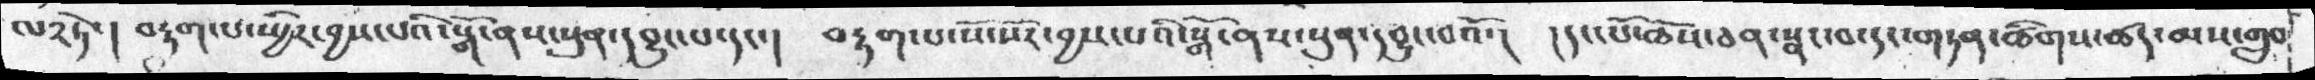ལ༢ཏེ་། བརྟག་པ་སྤྱིར་བྱས་པའི་སྒོ་ནས་སུན་དབྱུང་པ་དང་།  བརྟག་པ་སོ་སོར་བྱས་པའི་སྒོ་ནས་སུན་དབྱུང་བའོ་།  །དང་པོ་ཆོས་ཅན་སྣང་བ་དང་གཏན་ཚིགས་ཚད་མས་གྲུབ
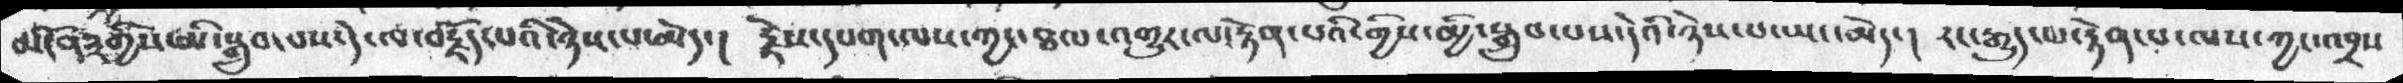མངོན༣གྱིས་མི་སྒྲུན་པས་དེ་ལ་བརྗོད་པའི་ཉེས་པ་མེད་།  རྗེས་དཔག་ལས་ཀྱང་ཐལ་འགྱུར་ལ་རྟོན་པའི་གྱིས་མྱི་སྒྲུབ་པས་དེའི་ཉེས་པ་ཡང་མེད་།  རང་རྒྱུད་མ་རྟེན་པ་ལས་ཀྱང་འབྲས
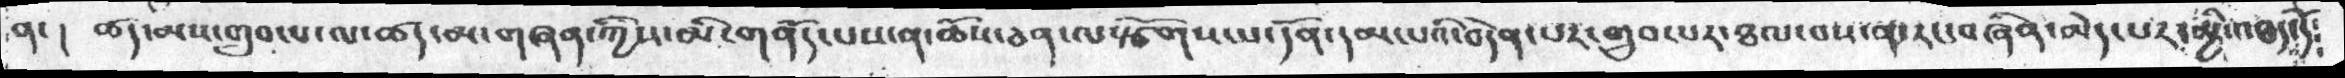ན་ ། ཚད་མས་གྲུབ་པ་ལ་ཚད་མ་གཞན་ཀྱིས་མི་གནོད་པས་ན་ཆོས་ཅན་ལསྩོགསཔ་དོན་དམ་པའི་བདེན་པར་གྲུབ་པར་ཐལ་བས་ན་རང་བཞིན་མེད་པར་མྱི་འཐད་དོ༴
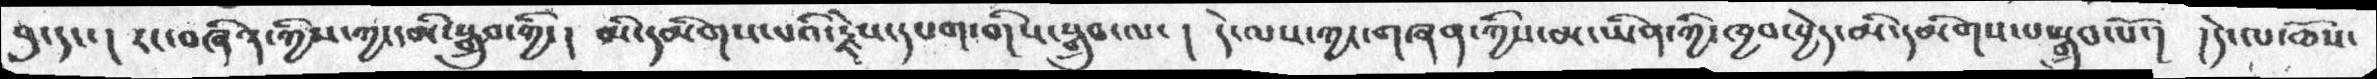བུ་དང་། རང་བཞིན་གྱིས་ཀྱང་མི་སྒྲུབ་ཀྱི་།  མི་དམིགས་པའི་རྗེས་དཔག་གིས་སྒྲུབ་ལ་།  དེས་ལས་ཀྱང་གཞན་གྱིས་མ་ཡིན་གྱི་ཁྱབ་བྱེད་མི་དམིགས་ས་སྒྲུབ་པོ་།  །དེ་ལ་ཆོས་
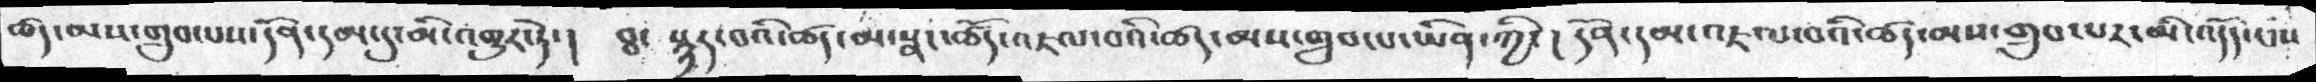ཚད་མས་གྲུབ་པས་དོན་དམ་དུ་མི་འགྱུར་ཏེ་། ཐ་ སྙད་པའི་ཚད་མ་སྣང་ཚོད་འཇལ་བའི་ཚད་མས་གྲུབ་པ་ཡིན་ཀྱི་།  དོན་དམ་འཇལ་བའི་ཚད་མས་གྲུབ་པར་མི་འདོད་པས
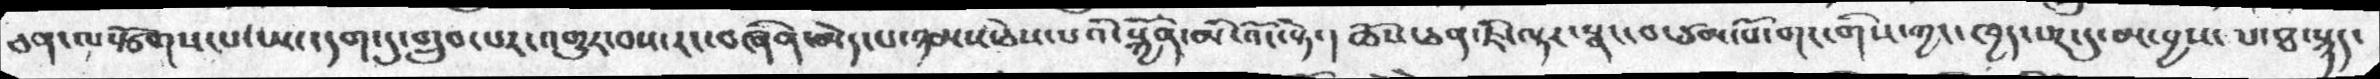ཅན་ལསྩོགས་པ་ཡང་དག་དུ་གྲུབ་པར་འགྱུར་བས་རང་བཞིན་མེད་པ་ཉམས་ཅེས་པའི་སྐྱོན་མི་འོང་སྟེ་། ཆོས་ཅན་ཇི་ལྟར་སྣང་ཙམ་པོ་གང་གིས་ཀྱང་ཁྱད་པར་དུ་མ་བྱས་པ་ཐ་སྙད་
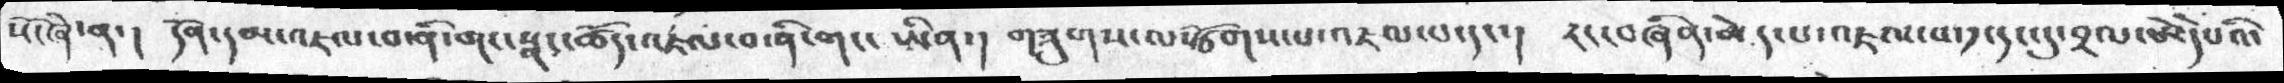སོ་ཞེ་ན་།  དོན་དམ་འཇལ་བ་གང་སྣང་ཚོད་འཇལ་བ་ནི་གང་ཡིན་། གཟུགས་ལསོགས་པ་འཇལ་པ་དང་།  རང་བཞིན་མེད་པ་འཇལ་བ་དུ་དང་དུ་བྲལ་བར་དེཔའི་
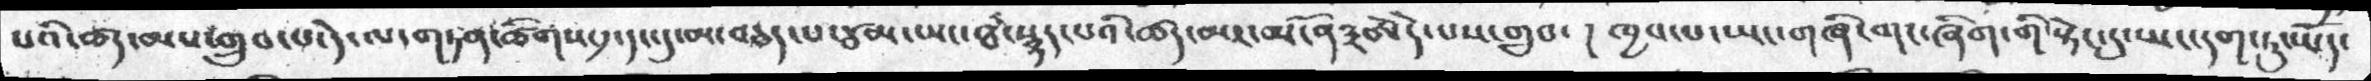པའི་ཚད་མས་གྲུབ་པ་དེ་ལ་གཏན་ཚིགས་དུ་དང་དུ་མ་བཅད་པ་ཙམ་ཡང་ཐ་སྙད་པའི་ཚད་མར་མངོན༣བོར་དེ་པས་གྲུབ་།  ཁྱབ་པ་ཡང་གཞི་གང་ཞིག་གི་སྟེང་དུ་ཡང་དག་ཏུ་ཡོད་
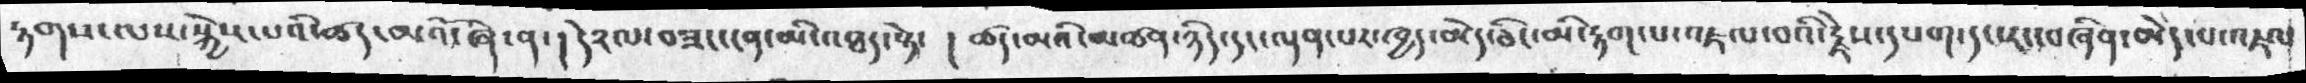རྟགས་ལས་སྐྱེས་པའི་ཚད་མའོ་ཞེ་ན་།  དེ༢ལ་བཟང་ངན་མི་འཐད་སྟེ་  ། ཚད་མའི་མཚན་ཉིད་དང་ལྡན་པར་ཁྱད་མེད་ཅིང་མི་རྟག་པ་འཇལ་བའི་རྗེས་དཔག་དང་རང་བཞིན་མེད་འཇལ
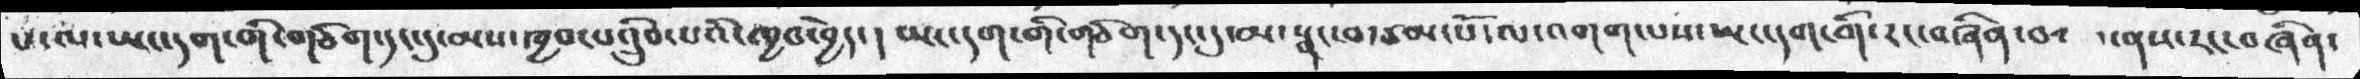པ་ལ་ཡང་དག་གི་གཅིག་དང་དུ་མས་ཁྱབ་པ་དྲིུབ་པའི་ཁྱབ་བྱེད་།  ཡང་དག་གི་གཅིག་དང་དུ་མ་སྣང་བ་ཙམ་པོ་ལ་འགག་པས་ཡང་དག་གི་རང་བཞིན་བསམ་ནས་རང་བཞིན་
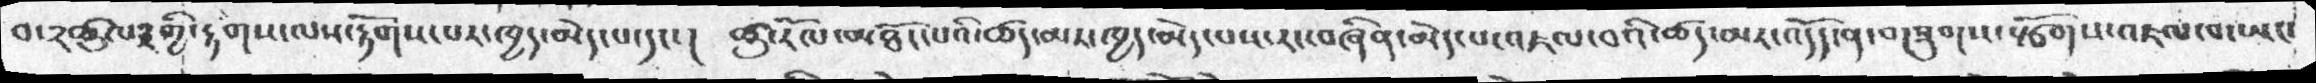བ་༢ཚུལ༣གྱི་རྟགས་ལས་རྟོགས་པར་ཁྱད་མེད་པ་དང་། ཚུ་རོལ་མཐོང་པའི་ཚད་མས་ཁྱད་མེད་པས་རང་བཞིན་མེད་པ་འཇལ་བའི་ཚད་མར་འདོད་ན་གཟུགས་སྩོགས་འཇལ་བ་ཡང་
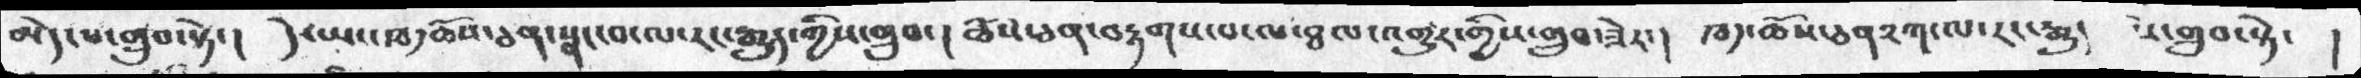མེད་པ་གྲུབ་སྟེ་།  དེ་ཡང་ཁ༡ཆོས་ཅན་སྣང་བ་ལ་རང་རྒྱུད་གྱིས་གྲུབ་།  ཆོས་ཕན་བརྟགས་པ་ལ་ཐལ་འགྱུར་གྱིས་གྲུབ་ཟེར་།  ཁ༡་ཆོས་ཅན༢ཀ་ལ་རང་རྒྱུད  སྟེ་གྲུབ་སྟེ་   །
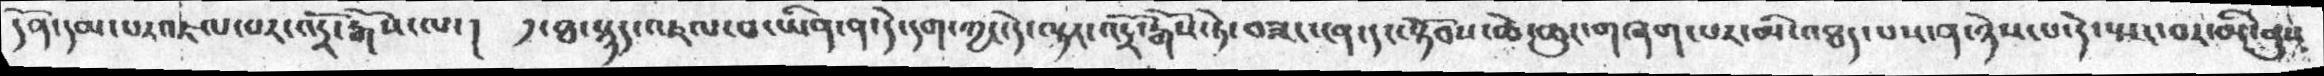དོན་དམ་པར་འཇལ་བར་འདྲོ་རྒོས་ལ་།  ༡་ཐ་སྙད་འཇལ་བ་ཡིན་ན་དེ་དག་ཀྱང་དེ་ལྟར་འདྲོ་རྒོས་ཏེ་བཟང་ངན་དང་སྟོབས་ཆེ་ཆུང་གཞག་པར་མི་འཐད་པས་ན་ཉེས་པ་ད་ེསྤང་བར་མི་ནུས་
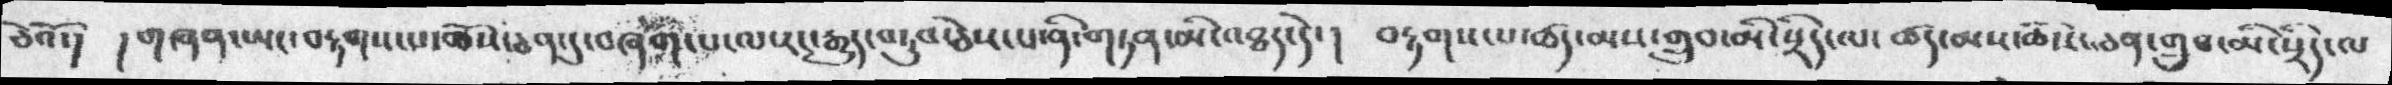ཅེའོ་།  །གཞན་ཡང་བརྟགས་པ་ཆོས་ཅན་དུ་བཞག་པ་ལ་རང་རྒྱུད་བཏུབ་ཅེས་པ་ནི་གཏན་མི་འཐད་དེ་།  བརྟགས་པ་ཚད་མས་གྲུབ་མི་སྲིད་ལ་ཚད་མས་ཆོས་ཅན་གྲུབ་མི་སྲིད་ལ་
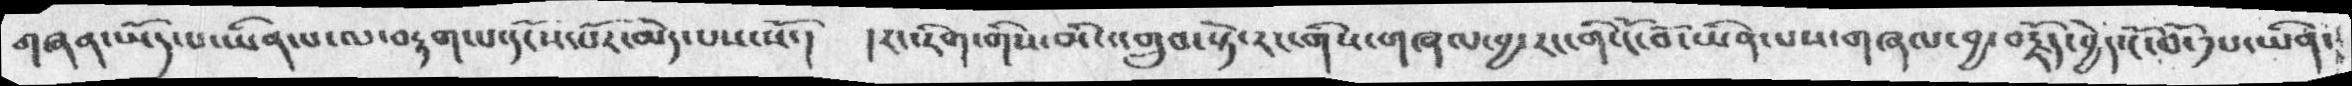གཞན་ཡོད་པ་ཡིན་པ་ལ་བརྟག་པ་དངོས་པོར་མེད་པས་སོ་།  །རང་རིག་གིས་མི་འགྲུབ་སྟེ་རང་གིས་གཞལ་བྱ་རང་གི་ངོ་བོ་ཡིན་པས་གཞལ་བྱ་བརྗོད་བྱེད་ངོ་བོ་༡པ་ཡིན་
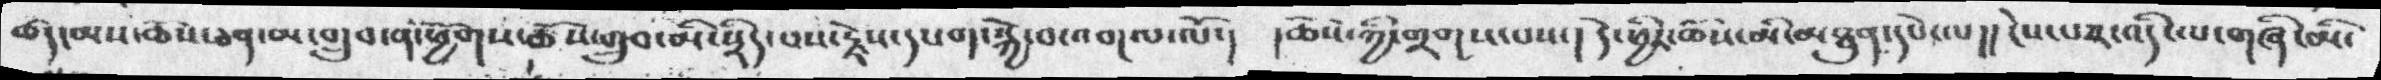ཚད་མས་ཆོས་ཅན་མ་གྲུབ་ན་ཕྱོགས་ཆོས་གྲུབ་མི་སྲིད་པས་རྗེས་དཔག་སྐྱེ་བ་འགལ་ལོ་།  །ཆོས་ཀྱི་གྲགས་པས་།  དེ་ཕྱིར་ཆོས་མིན་མཐུན་དཔེ་ལ།། ངེས་པར་འདི་ལ་གཞི་མི་
